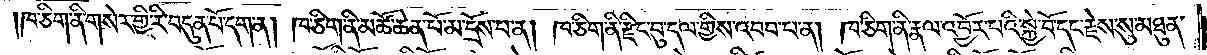ཁ་ཅིག་ནི་གསེར་གྱི་རི་བདུན་པོ་དག་ན། ཁ་ཅིག་ནི་མཚོ་ཆེན་པོ་མ་དྲོས་པ་ན། ཁ་ཅིག་ནི་རྫིང་བུ་དལ་གྱིས་འབབ་པ་ན། ཁ་ཅིག་ནི་རྣལ་འབྱོར་པའི་སྐྱེ་བོ་དང་རྗེས་སུ་མཐུན་
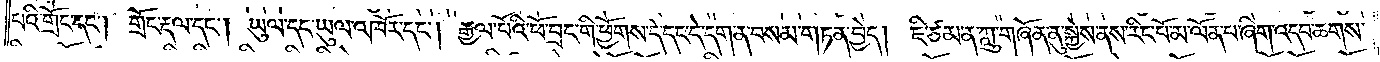པའི་གྲོང་དང༌། གྲོང་རྡལ་དང༌། ཡུལ་དང་ཡུལ་འཁོར་དང༌། རྒྱལ་པོའི་ཕོ་བྲང་གི་ཕྱོགས་དེ་དང་དེ་དག་ན་བསམ་གཏན་བྱེད། ཇི་ཙམ་ན་ཀླུ་གཞོན་ནུ་སྐྱེས་ནས་རིང་པོ་མ་ལོན་པ་ཞིག་འདབ་ཆགས་
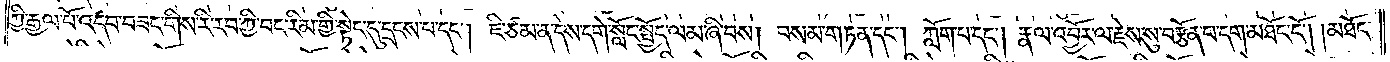ཀྱི་རྒྱལ་པོ་འདབ་བཟང་གིས་རི་རབ་ཀྱི་བང་རིམ་གྱི་སྟེང་དུ་དྲངས་པ་དང༌། ཇི་ཙམ་ན་དེས་དགེ་སློང་སྤྱོད་ལམ་ཞི་བས། བསམ་གཏན་དང༌། ཀློག་པ་དང༌། རྣལ་འབྱོར་ལ་རྗེས་སུ་བརྩོན་པ་དག་མཐོང་ངོ༌། །མཐོང་
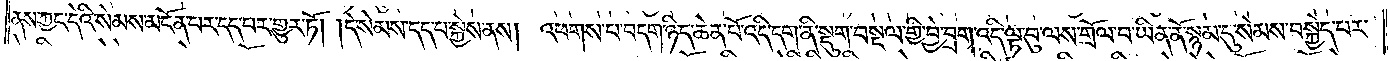ནས་ཀྱང་དེའི་སེམས་མངོན་པར་དད་པར་གྱུར་ཏོ། །དེ་སེམས་དད་པ་སྐྱེས་ནས། འཕགས་པ་བདག་ཉིད་ཆེན་པོ་འདི་དག་ནི་སྡུག་བསྔལ་གྱི་བྱེ་བྲག་འདི་ལྟ་བུ་ལས་གྲོལ་བ་ཡིན་ནོ་སྙམ་དུ་སེམས་བསྐྱེད་པར་
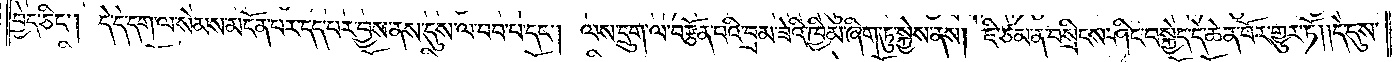བྱེད་ཅིང༌། དེ་དེ་དག་ལ་སེམས་མངོན་པར་དད་པར་བྱས་ནས་དུས་ལ་བབ་པ་དང༌། ལས་དྲུག་ལ་བརྩོན་པའི་བྲམ་ཟེའི་ཁྱིམ་ཞིག་ཏུ་སྐྱེས་ནས། ཇི་ཙམ་ན་བསྲིངས་ཤིང་བསྐྱེད་དེ་ཆེན་པོར་གྱུར་ཏོ༎དེ་དུས་
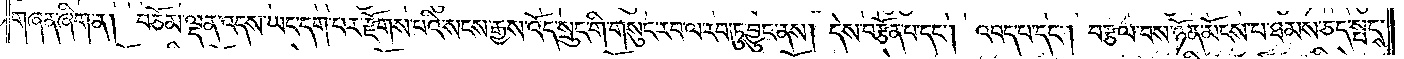གཞན་ཞིག་ན། བཅོམ་ལྡན་འདས་ཡང་དག་པར་རྫོགས་པའི་སངས་རྒྱས་འོད་སྲུང་གི་གསུང་རབ་ལ་རབ་ཏུ་བྱུང་ནས། དེས་བརྩོན་པ་དང༌། འབད་པ་དང༌། བརྩལ་བས་ཉོན་མོངས་པ་ཐམས་ཅད་སྤངས་
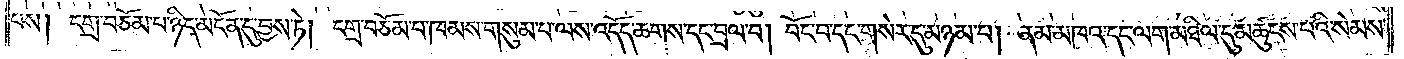པས། དགྲ་བཅོམ་པ་ཉིད་མངོན་དུ་བྱས་ཏེ། དགྲ་བཅོམ་པ་ཁམས་གསུམ་པ་ལས་འདོད་ཆགས་དང་བྲལ་བ། བོང་བ་དང་གསེར་དུ་མཉམ་པ། ནམ་མཁའ་དང་ལག་མཐིལ་དུ་མཚུངས་པའི་སེམས་
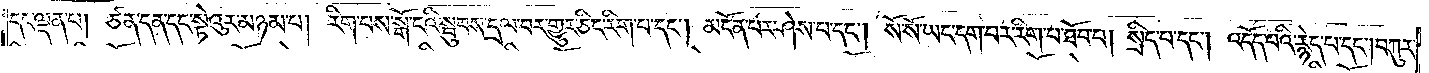དང་ལྡན་པ། ཙན་དན་དང་སྟེའུར་མཉམ་པ། རིག་པས་སྒོ་ངའི་སྦུབས་དྲལ་བར་གྱུར་ཅིང་རིག་པ་དང༌། མངོན་པར་ཤེས་པ་དང༌། སོ་སོ་ཡང་དག་པར་རིག་པ་ཐོབ་པ། སྲིད་པ་དང༌། འདོད་པའི་རྙེད་པ་དང༌། བཀུར་
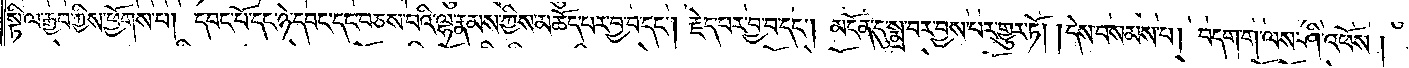སྟི་ལ་རྒྱབ་ཀྱིས་ཕྱོགས་པ། དབང་པོ་དང་ཉེ་དབང་དང་བཅས་པའི་ལྷ་རྣམས་ཀྱིས་མཆོད་པར་བྱ་བ་དང༌། རྗེད་པར་བྱ་བ་དང༌། མངོན་དུ་སྨྲ་བར་བྱས་པར་གྱུར་ཏོ། །དེས་བསམས་པ། བདག་ག་ལས་ཤི་འཕོས།
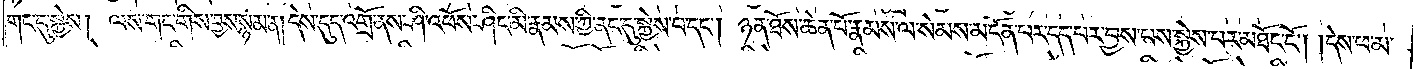གང་དུ་སྐྱེས། ལས་གང་གིས་བྱས་སྙམ་ན། དེས་དུད་འགྲོ་ནས་ཤི་འཕོས་ཤིང་མི་རྣམས་ཀྱི་ནང་དུ་སྐྱེས་པ་དང༌། ཉན་ཐོས་ཆེན་པོ་རྣམས་ལ་སེམས་མངོན་པར་དད་པར་བྱས་པས་སྐྱེས་པར་མཐོང་ངོ༌། །དེས་ཕ་མ་
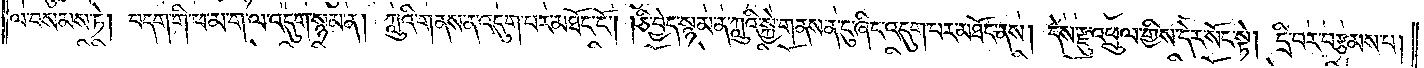ལ་བསམས་ཏེ། བདག་གི་ཕ་མ་ག་ལ་འདུག་སྙམ་ན། ཀླུའི་གནས་ན་འདུག་པར་མཐོང་ངོ༌། །ཅི་བྱེད་སྙམ་ན་ཀླུའི་སྐྱེ་གནས་ན་ངུ་ཞིང་འདུག་པར་མཐོང་ནས། དེས་རྫུ་འཕྲུལ་གྱིས་དེར་སོང་སྟེ། དྲི་བར་བརྩམས་པ།
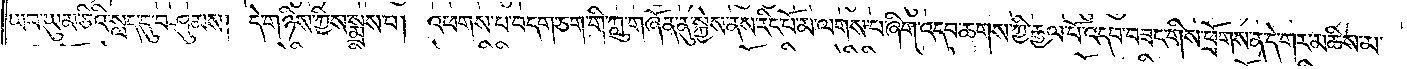ཡབ་ཡུམ་ཅིའི་སླད་དུ་བཤུམས། དེ་གཉིས་ཀྱིས་སྨྲས་པ། འཕགས་པ་བདག་ཅག་གི་ཀླུ་གཞོན་ནུ་སྐྱེས་ནས་རིང་པོ་མ་ལགས་པ་ཞིག་འདབ་ཆགས་ཀྱི་རྒྱལ་པོ་འདབ་བཟང་གིས་ཕྲོགས་ན་དེ་གར་མཆིས་མ་
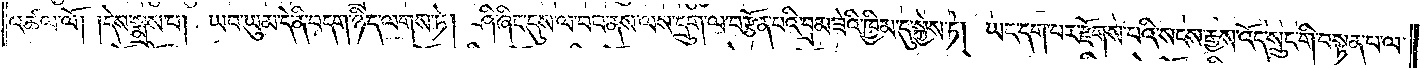འཚལ་ལོ། །དེས་སྨྲས་པ། ཡབ་ཡུམ་དེ་ནི་བདག་ཉིད་ལགས་ཏེ། ཤི་ཞིང་དུས་ལ་བབ་ནས་ལས་དྲུག་ལ་བརྩོན་པའི་བྲམ་ཟེའི་ཁྱིམ་དུ་སྐྱེས་ཏེ། ཡང་དག་པར་རྫོགས་པའི་སངས་རྒྱས་འོད་སྲུང་གི་བསྟན་པ་ལ་
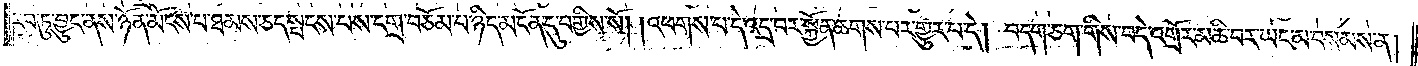རབ་ཏུ་བྱུང་ནས་ཉོན་མོངས་པ་ཐམས་ཅད་སྤངས་པས་དགྲ་བཅོམ་པ་ཉིད་མངོན་དུ་བགྱིས་སོ། །འཕགས་པ་དེ་འདྲ་བར་སྐྱོན་ཆགས་པར་གྱུར་པ་དེ། བདག་ཅག་གིས་བདེ་འགྲོར་མཆི་བར་ཡང་མ་བསམས་ན།
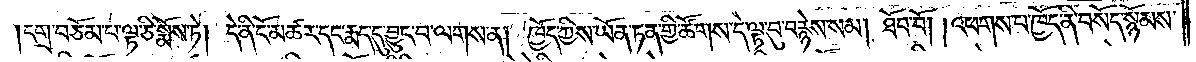དགྲ་བཅོམ་པ་ལྟ་ཅི་སྨོས་ཏེ། དེ་ནི་ངོ་མཚར་དང་རྨད་དུ་བྱུང་བ་ལགས་ན། ཁྱོད་ཀྱིས་ཡོན་ཏན་གྱི་ཚོགས་དེ་ལྟ་བུ་བརྙེས་སམ། ཐོབ་བོ། །འཕགས་པ་ཁྱོད་ནི་བསོད་སྙོམས་
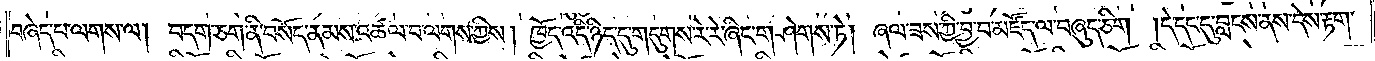བཞེད་པ་ལགས་ལ། བདག་ཅག་ནི་བསོད་ནམས་འཚལ་བ་ལགས་ཀྱིས། ཁྱོད་འདི་ཉིད་དུ་གདུགས་རེ་རེ་ཞིང་གཤེགས་ཏེ། ཞལ་ཟས་ཀྱི་བྱ་བ་མཛོད་ལ་བཞུད་ཅིག །དེ་དང་དུ་བླངས་ནས་དེས་རྟག་
